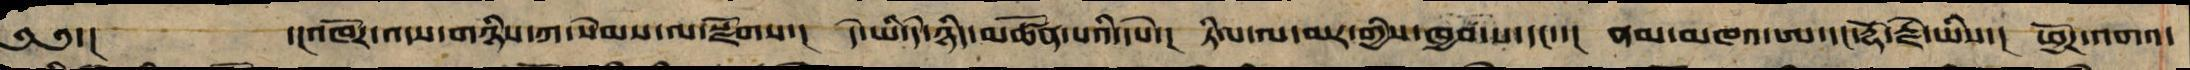༄༅་། ་།འཁོར་འདས་གཉིས་ཀ་སེམས་ལ་སྫོགས་། དེ་ཡི་དེ་ཉིད་མཚོན་པའི་དཔེ་། ཏིལ་ལ་མར་གྱིས་ཁྱབ་པ་དང་་། ནམ་མཁའ་ཨ་དང་རྡོ་རྗེ་ཡིས་། ཕྱོཌ་འགའ་
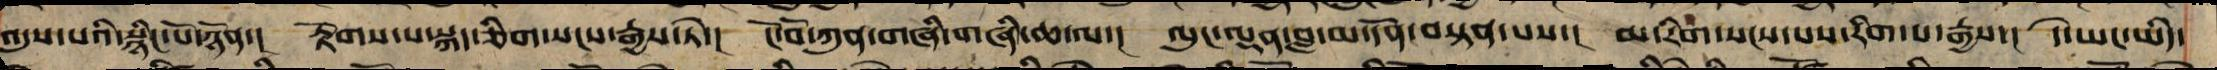འདུས་པའི་སྙིང་པོ་ཉོན་། རྟོགས་པ་སྐད་ཅིག་སངས་རྒྱས་ཏེ་། ངོ་བོ་ཀུན་གཞི་གཞི་ཆ་ལ་། ལུང་ལྡན་བླ་མས་དོན་བསྟན་པས་། མ་རིག་སངས་པས་རིག་པ་རྒྱས་། དེ་ཡང་ཡིད་
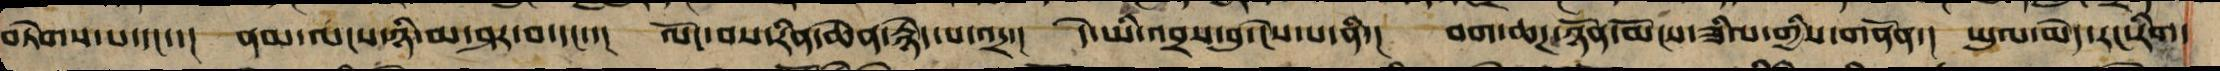བཏེགས་པ་དང་་། ནམ་ལངས་ཉི་མ་ཤར་བ་དང་་། ལོང་བས་རིན་ཆེན་རྙེད་པ་འདྲ་། དེ་ཡི་འབྲས་བུ་ངེས་པ་ནི་། བག་ཆཌ་ཉོན་མོངས་ཟིལ་གྱིས་གནོན་། ཡུལ་མེད་རང་རིག་
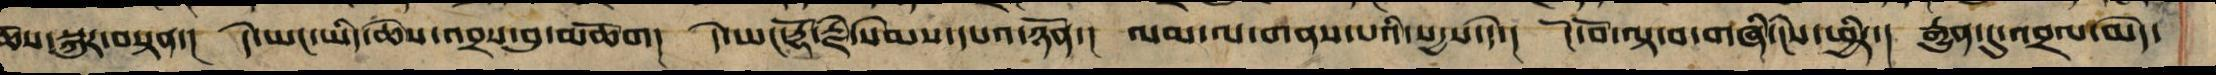ཆོས་སྐུར་བསྟན་། དེ་ཡང་ཡིད་ཆེས་འབྲས་བུ་མཆོག། དེ་ཡང་རྡོ་རྗེ་སེམས་དཔའ་ཉོན་། ལམ་ལ་གནས་པའི་སདྱས་དེ་། ངོ་བོ་ལྟ་བའི་གཞིར་ངེས་ཕྱིར་། རྒྱུན་དུ་འབྲལ་མེད་
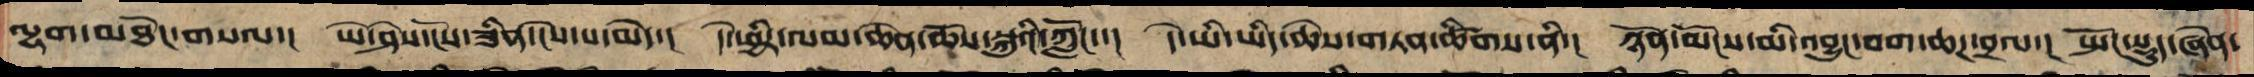ལྷག་མཐོང་གསལ་། ཡེ་ཤེས་ངོས་ཟིན་ཡེངས་པ་མེད་། དེ་ཕྱིར་ལམ་ཆེན་ཆོས་སྐུའི་ཀློང་་། དེ་ཡི་ཡིད་ཆེས་གཏན་ཚིགས་ནི་། ཉོན་མོངས་མི་འབྱུང་བག་ཆཌ་བྲལ་། སྤོང་སྡུད་ཞེན་
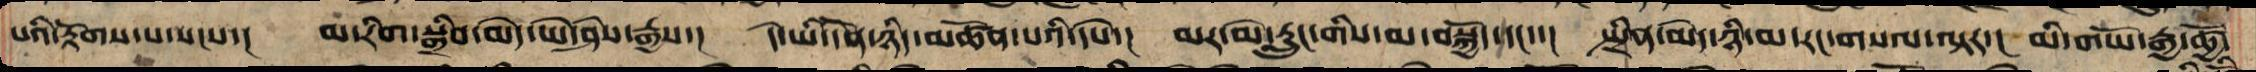པའི་རྟོག་པ་སངས་། མ་རིག་སྒྲིབ་མེད་ཡེ་ཤེས་རྒྱས་། དེ་ཡི་དོན་ཉིད་མཚོན་པའི་དཔེ་། མར་མེ་རླུང་གིས་མ་བསྐྱོད་དང་་། སྤྲིན་མེད་ཉི་མ་རང་གསལ་ལྟར་། མི་གཡོ་རྒྱ་ཚྱོ་
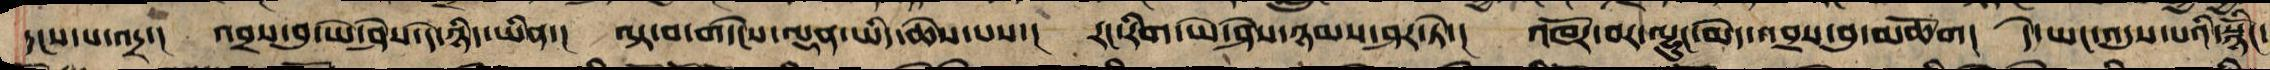དྭངས་པ་འདྲ་། འབྲས་བུའི་ཡེ་ཤེས་དེ་ཉིད་ཡིན་། ལྟ་བ་གདེང་ལྡན་ཡིད་ཆེས་པས་། རང་རིག་ཡེ་ཤེས་ཉམས་ཤར་ཏེ་། འཁོར་བར་ལྷུང་མེད་འབྲས་བུ་མཆོག། དེ་ཡང་འདུས་པའི་སྙིངོ་
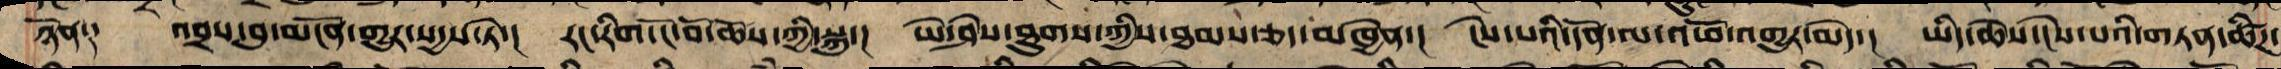ཉོན༑ འབྲས་བུ་མངོན་གྱུར་སདྱས་ནི་། རང་གི་ངོ་བོ་ཆོས་ཀྱི་སྐུ་། ཡེ་ཤེས་ཐུགས་ཀྱིས་ཐམས་ཅད་མཁྱེན་། ངེས་པའི་དོན་ལ་འཕོ་འགྱུར་མེད་། ཡིད་ཆེས་ངེས་པའི་གཏན་ཚིཌ་
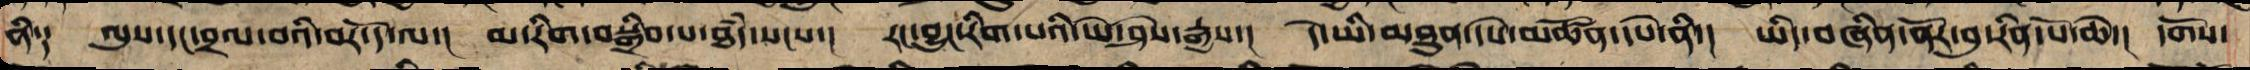ནི༑ ལུས་དང་བྲལ་བའི་བར་དོ་ལ་། མ་རིག་བསྒྲིབ་པ་ཐཾད་སངས་། རང་བྱུང་རིག་པའི་ཡེ་ཤེས་རྒྱས་། དེ་ཡི་མཐུན་དཔེ་མཚོན་དཔེ་ནི་། ཡིད་བཞིན་ནོར་བུ་རིན་པོ་ཆེ་། དགོས་
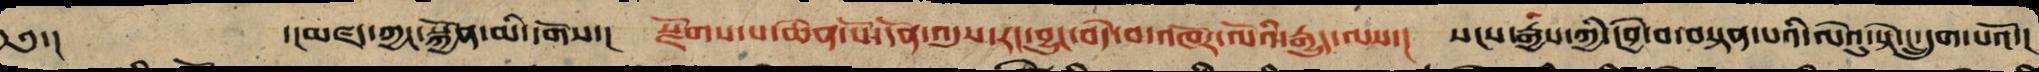༄༅་།  ་།མཛད་ཀྱང་སྐྱོན་མི་དགོས་། སྫོགས་པ་ཆེན་པོ་དོན་འདུས་རང་བྱུང་བདེ་བའི་འཁོར་ལོའི་རྒྱུད་ལས་། སངས་རྒྱས་ཀྱི་དབྱེ་བ་བསྟན་པའི་ལེའུ་སྟེ་ང་དྲུག་པའོ་།
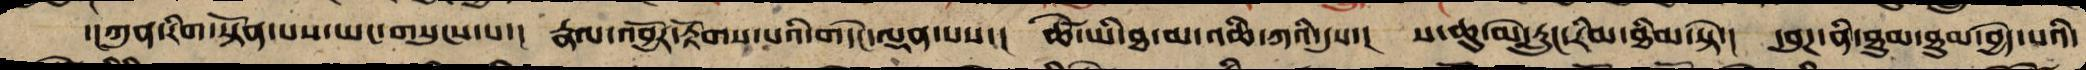་།།ཀུན་རིག་སྟོན་པས་ཡང་གསུངས་པ་། རྣལ་འབྱོར་རྟོགས་པའི་གདེང་ལྡན་པས་། ཚེ་ཡི་ཐ་མ་འཆི་ཀའི་དུས་། ས་ཆུ་མེ་རླུང་རིམ་ཐིམ་སྟེ་། དབུཌ་ནི་ཐུམ་ཐུམ་བྱེད་པའི་
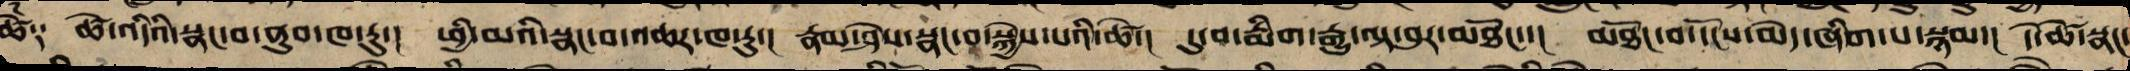ཚེ༑ ཚེ་འདིའི་སྣང་བ་ནུབ་ཁ་རུ་། ཕྱི་མའི་སྣང་བ་འཆར་ཁ་རུ་། རྣམ་ཤེས་སྣང་བ་སྐྱེས་པའི་ཚེ་། དུ་བ་སྨིག་རྒྱུ་ལྟ་བུར་མཐོང་་། འབྱུང་བ་དངོས་མེད་ཞིག་པ་སྙམ་། དེ་ཚེ་སྣང་
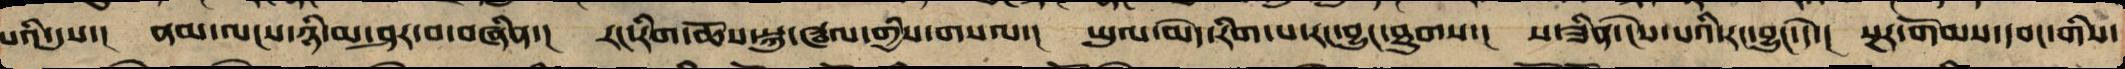པའི་དུས་། ནམ་ལངས་ཉི་མ་ཤར་བ་བཞིན་། རང་རིག་ཆོས་སྐུ་ཝལ་གྱིས་གསལ་། ཡུལ་མེད་རིག་པ་རང་བྱུང་ཐུགས་། ས་ཟིན་ངེས་པའི་རང་བྱུང་དེ་། སྔར་གོམས་དབང་གིས་
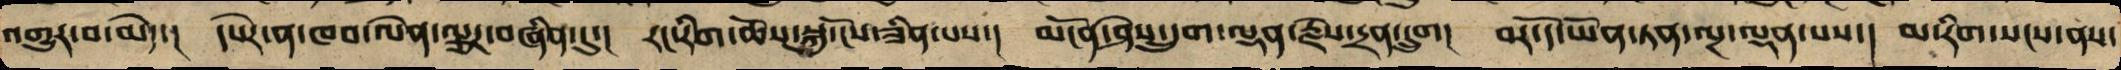འགྱུར་བ་མེད་། དཔེར་ན་ཁབ་ལེན་ལྕགས་བཞིན་དུ་། རང་རིག་ཆོས་སྐུ་ངོས་ཟིན་པས་། མངོན་ཤེས་དྲུག་ལྡན་རྗེས་དྲན་དྲུག། བར་དོ་ཡོན་ཏན་ལྔ་ལྡན་པས་། མ་རིག་སངས་ནས་
